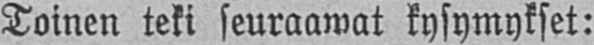Toinen teki seuraawat kysymykset:
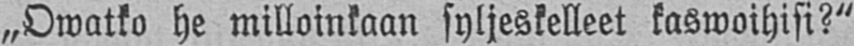„Owatko he milloinkaan syljeskelleet kaswoihisi?"
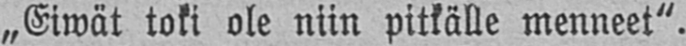„Eiwät toki ole niin pitkälle menneet".
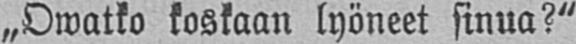„Owatko koskaan lyöneet sinua?"
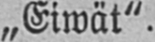„ Eiwät".
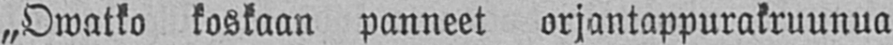„Owatko koskaan panneet orjantappurakruunua
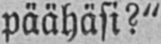päähäsi?"
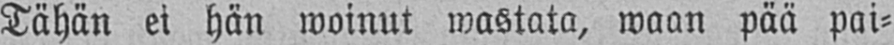Tähän ei hän woinut wastata, wan pää pai-
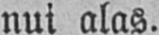nui alas.
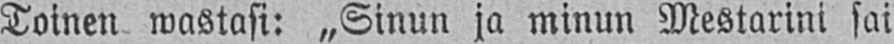Toinen wastasi „Sinun ja minun Mestarini sai
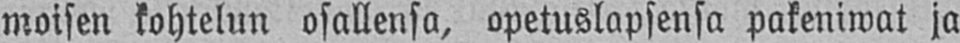moisen kohtelun osallensa, opetuslapsensa pakeniwat ja
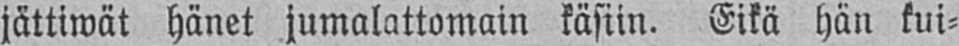jättiwät hänet jumalattomain käsiin. Eikä hän kui-
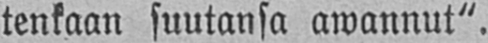tenkaan suutansa awannut".
